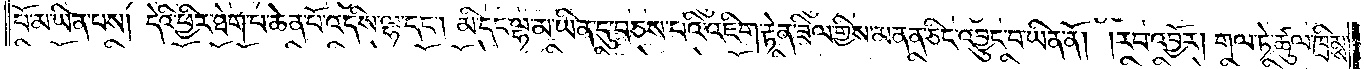པོ་མ་ཡིན་པས། དེའི་ཕྱིར་ཐེག་པ་ཆེན་པོ་འདིས་ལྷ་དང༌། མི་དང་ལྷ་མ་ཡིན་དུ་བཅས་པའི་འཇིག་རྟེན་ཟིལ་གྱིས་མནན་ཅིང་འབྱུང་བ་ཡིན་ནོ། །རབ་འབྱོར། གལ་ཏེ་ཚུལ་ཁྲིམས་
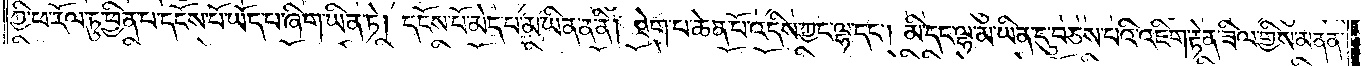ཀྱི་ཕ་རོལ་ཏུ་ཕྱིན་པ་དངོས་པོ་ཡོད་པ་ཞིག་ཡིན་ཏེ། དངོས་པོ་མེད་པ་མ་ཡིན་ན་ནི། ཐེག་པ་ཆེན་པོ་འདིས་ཀྱང་ལྷ་དང༌། མི་དང་ལྷ་མ་ཡིན་དུ་བཅས་པའི་འཇིག་རྟེན་ཟིལ་གྱིས་མནན་
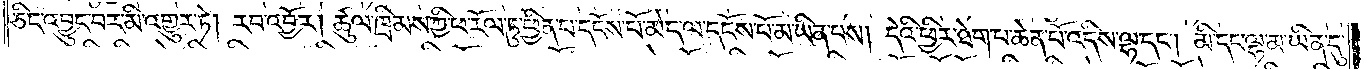ཅིང་འབྱུང་བར་མི་འགྱུར་ཏེ། རབ་འབྱོར། ཚུལ་ཁྲིམས་ཀྱི་ཕ་རོལ་ཏུ་ཕྱིན་པ་དངོས་པོ་མེད་ལ་དངོས་པོ་མ་ཡིན་པས། དེའི་ཕྱིར་ཐེག་པ་ཆེན་པོ་འདིས་ལྷ་དང༌། མི་དང་ལྷ་མ་ཡིན་དུ་
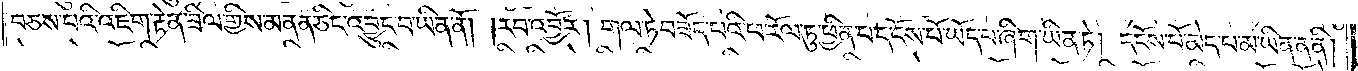བཅས་པའི་འཇིག་རྟེན་ཟིལ་གྱིས་མནན་ཅིང་འབྱུང་བ་ཡིན་ནོ། །རབ་འབྱོར། གལ་ཏེ་བཟོད་པའི་ཕ་རོལ་ཏུ་ཕྱིན་པ་དངོས་པོ་ཡོད་པ་ཞིག་ཡིན་ཏེ། དངོས་པོ་མེད་པ་མ་ཡིན་ན་ནི།
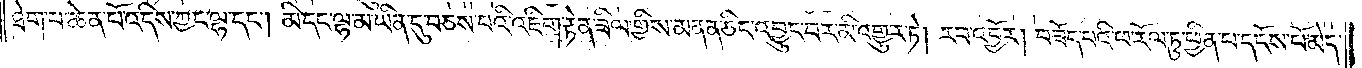ཐེག་པ་ཆེན་པོ་འདིས་ཀྱང་ལྷ་དང༌། མི་དང་ལྷ་མ་ཡིན་དུ་བཅས་པའི་འཇིག་རྟེན་ཟིལ་གྱིས་མནན་ཅིང་འབྱུང་བར་མི་འགྱུར་ཏེ། རབ་འབྱོར། བཟོད་པའི་ཕ་རོལ་ཏུ་ཕྱིན་པ་དངོས་པོ་མེད་
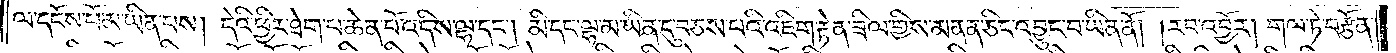ལ་དངོས་པོ་མ་ཡིན་པས། དེའི་ཕྱིར་ཐེག་པ་ཆེན་པོ་འདིས་ལྷ་དང༌། མི་དང་ལྷ་མ་ཡིན་དུ་བཅས་པའི་འཇིག་རྟེན་ཟིལ་གྱིས་མནན་ཅིང་འབྱུང་བ་ཡིན་ནོ། །རབ་འབྱོར། གལ་ཏེ་བརྩོན་
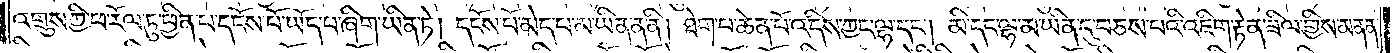འགྲུས་ཀྱི་ཕ་རོལ་ཏུ་ཕྱིན་པ་དངོས་པོ་ཡོད་པ་ཞིག་ཡིན་ཏེ། དངོས་པོ་མེད་པ་མ་ཡིན་ན་ནི། ཐེག་པ་ཆེན་པོ་འདིས་ཀྱང་ལྷ་དང༌། མི་དང་ལྷ་མ་ཡིན་དུ་བཅས་པའི་འཇིག་རྟེན་ཟིལ་གྱིས་མནན་
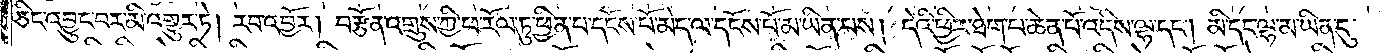ཅིང་འབྱུང་བར་མི་འགྱུར་ཏེ། རབ་འབྱོར། བརྩོན་འགྲུས་ཀྱི་ཕ་རོལ་ཏུ་ཕྱིན་པ་དངོས་པོ་མེད་ལ་དངོས་པོ་མ་ཡིན་པས། དེའི་ཕྱིར་ཐེག་པ་ཆེན་པོ་འདིས་ལྷ་དང༌། མི་དང་ལྷ་མ་ཡིན་དུ་
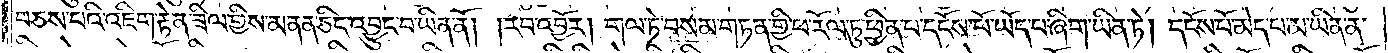བཅས་པའི་འཇིག་རྟེན་ཟིལ་གྱིས་མནན་ཅིང་འབྱུང་བ་ཡིན་ནོ། །རབ་འབྱོར། གལ་ཏེ་བསམ་གཏན་གྱི་ཕ་རོལ་ཏུ་ཕྱིན་པ་དངོས་པོ་ཡོད་པ་ཞིག་ཡིན་ཏེ། དངོས་པོ་མེད་པ་མ་ཡིན་ན་
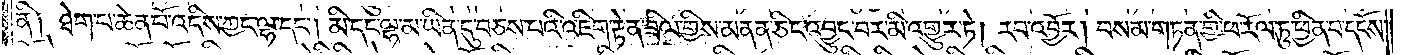ནི། ཐེག་པ་ཆེན་པོ་འདིས་ཀྱང་ལྷ་དང༌། མི་དང་ལྷ་མ་ཡིན་དུ་བཅས་པའི་འཇིག་རྟེན་ཟིལ་གྱིས་མནན་ཅིང་འབྱུང་བར་མི་འགྱུར་ཏེ། རབ་འབྱོར། བསམ་གཏན་གྱི་ཕ་རོལ་ཏུ་ཕྱིན་པ་དངོས་
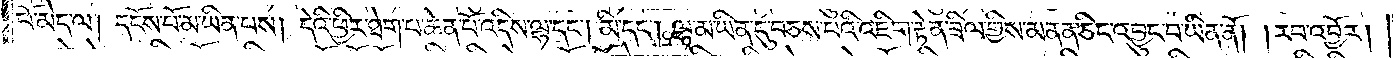པོ་མེད་ལ། དངོས་པོ་མ་ཡིན་པས། དེའི་ཕྱིར་ཐེག་པ་ཆེན་པོ་འདིས་ལྷ་དང༌། མི་དང༌། ལྷ་མ་ཡིན་དུ་བཅས་པའི་འཇིག་རྟེན་ཟིལ་གྱིས་མནན་ཅིང་འབྱུང་བ་ཡིན་ནོ། །རབ་འབྱོར།
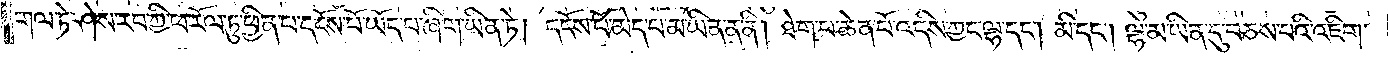གལ་ཏེ་ཤེས་རབ་ཀྱི་ཕ་རོལ་ཏུ་ཕྱིན་པ་དངོས་པོ་ཡོད་པ་ཞིག་ཡིན་ཏེ། དངོས་པོ་མེད་པ་མ་ཡིན་ན་ནི། ཐེག་པ་ཆེན་པོ་འདིས་ཀྱང་ལྷ་དང༌། མི་དང༌། ལྷ་མ་ཡིན་དུ་བཅས་པའི་འཇིག་
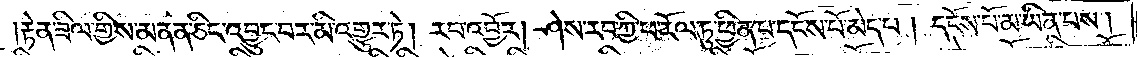རྟེན་ཟིལ་གྱིས་མནན་ཅིང་འབྱུང་བར་མི་འགྱུར་ཏེ། རབ་འབྱོར། ཤེས་རབ་ཀྱི་ཕ་རོལ་ཏུ་ཕྱིན་པ་དངོས་པོ་མེད་པ། དངོས་པོ་མ་ཡིན་པས།
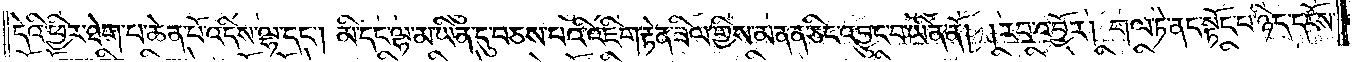དེའི་ཕྱིར་ཐེག་པ་ཆེན་པོ་འདིས་ལྷ་དང༌། མི་དང་ལྷ་མ་ཡིན་དུ་བཅས་པའི་འཇིག་རྟེན་ཟིལ་གྱིས་མནན་ཅིང་འབྱུང་བ་ཡིན་ནོ། །རབ་འབྱོར། གལ་ཏེ་ནང་སྟོང་པ་ཉིད་དངོས་
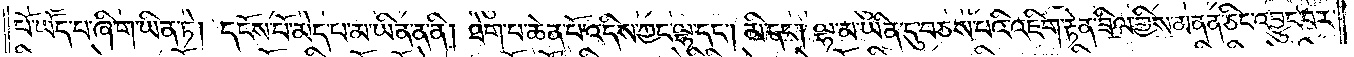པོ་ཡོད་པ་ཞིག་ཡིན་ཏེ། དངོས་པོ་མེད་པ་མ་ཡིན་པ་ནི། ཐེག་པ་ཆེན་པོ་འདིས་ཀྱང་ལྷ་དང༌། མི་དང༌། ལྷ་མ་ཡིན་དུ་བཅས་པའི་འཇིག་རྟེན་ཟིལ་གྱིས་མནན་ཅིང་འབྱུང་བར་
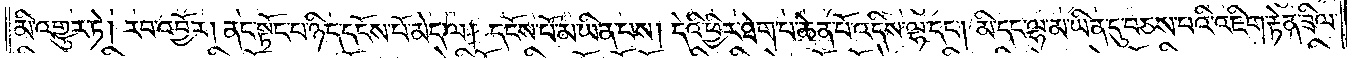མི་འགྱུར་ཏེ། རབ་འབྱོར། ནང་སྟོང་པ་ཉིད་དངོས་པོ་མེད་ལ། དངོས་པོ་མ་ཡིན་པས། དེའི་ཕྱིར་ཐེག་པ་ཆེན་པོ་འདིས་ལྷ་དང༌། མི་དང་ལྷ་མ་ཡིན་དུ་བཅས་པའི་འཇིག་རྟེན་ཟིལ་
